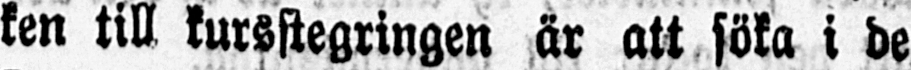ken till kursstegringen är att söka i de
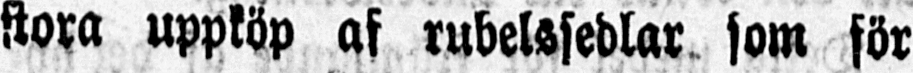stora uppköp af rubelssedlar som för
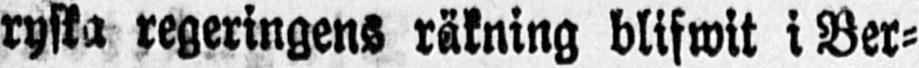ryska regeringens räkning blifwit i Ber-
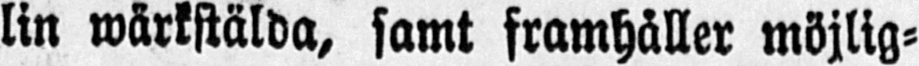lin wärkstälda, samt framhåller möjlig-
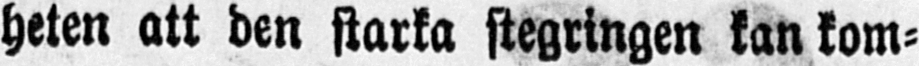heten att den starka stegringen kan kom-
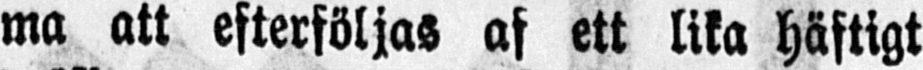ma att efterföljas af ett lika häftigt
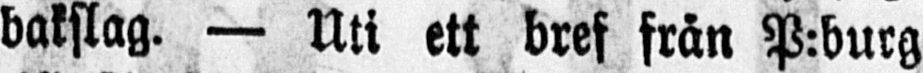bakslag. — Uti ett bref från P:burg
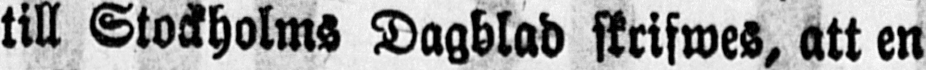till Stockholms Dagblad skrifwes, att en
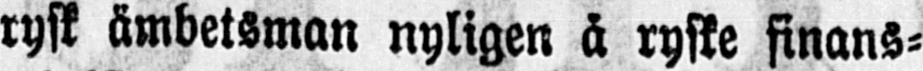rysk ämbetsman nyligen å ryske finans-
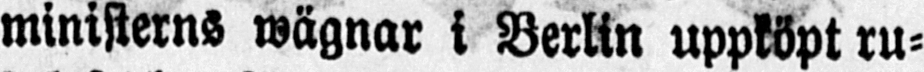ministerns wägnar i Berlin uppköpt ru-
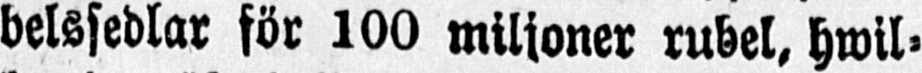belssedlar för 100 miljoner rubel, hwil-
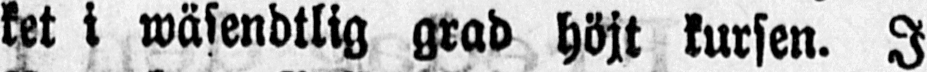ket i wäsendtlig grad höjt kursen. I
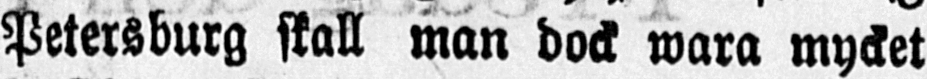Petersburg skall man dock wara mycket
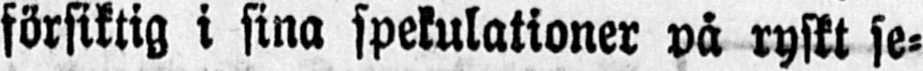försiktig i sina spekulationer på ryskt se-
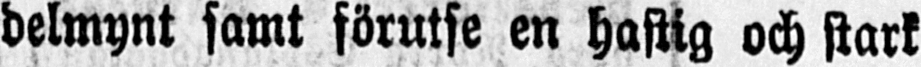delmynt samt förutse en hastig och stark
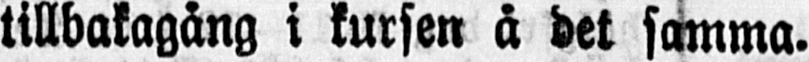tillbakagång i kursen å det samma.
